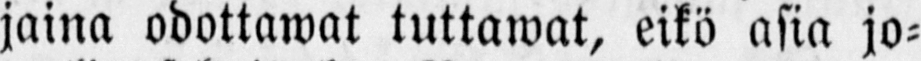jaina odottawat tuttawat, eikö asia jo-
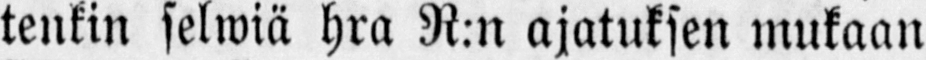tenkin selwiä hra R.n ajatuksen mukaan
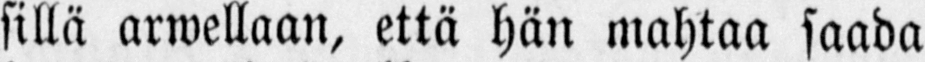sillä arwellaan, että hän mahtaa saada
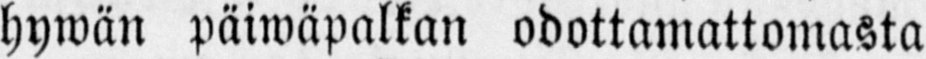hywän päiwäpalkan odottamattomasta
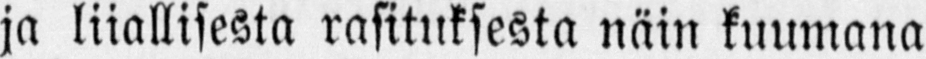ja liiallisesta rasituksesta näin kuumana
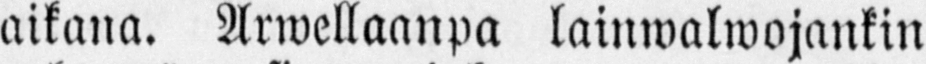aikana. Arwellaanpa lainwalwojankin
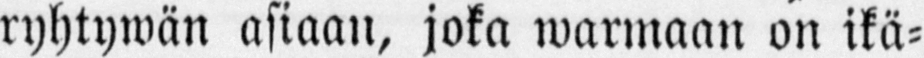ryhtywän asiaan, joka warmaan on ikä-
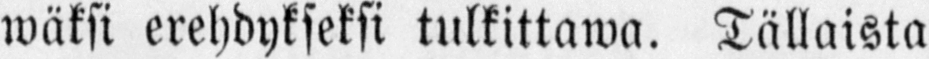wäksi erehdykseksi tulkittawa. Tällaista
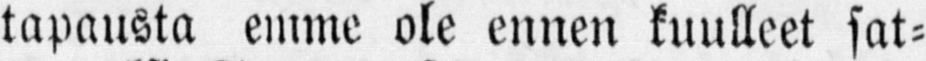tapausta emme ole ennen kuulleet sat-
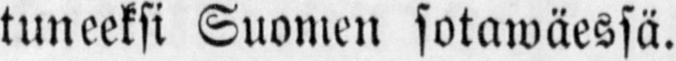tuneeksi Suomen sotawäessä.
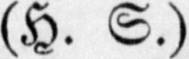(H- S.)
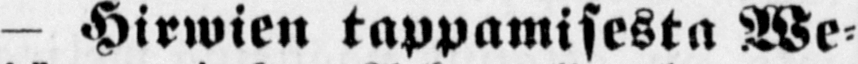— Hirwien tappamisesta We-
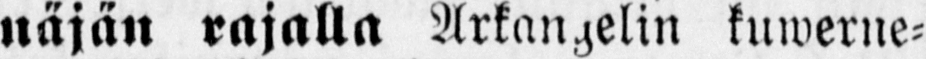näjän rajalla Arkangelin kuwerne-
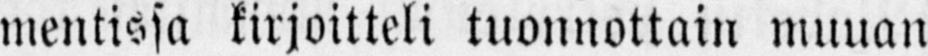mentissa kirjoitteli tuonnottain muuan
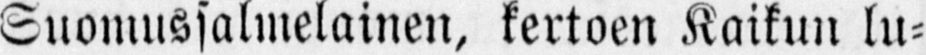Suomussalmelainen, kertoen Kaikuu lu-
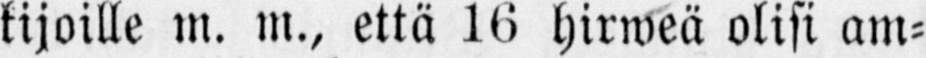kijoille m. m., että 16 hirweä olisi am-
